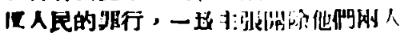反人民的罪行，一致主張開出他們兩人
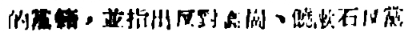的黨籍，並指出反對高崗、饒漱石反黨
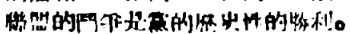聯盟的鬥爭是黨的歷史性的勝利。
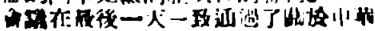會議在最後一天一致通過了關於中華
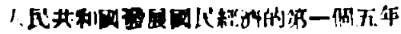人民共和國發展國民經濟的第一個五年
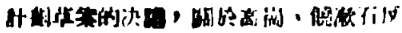計劃草案的決議，關於高崗、饒漱石反
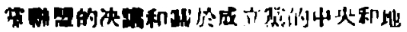黨聯盟的決議和關於成立黨的中央和地
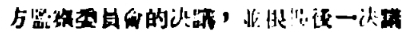方監察委員會的決議，並根據後一決議
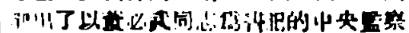選出了以董必武同志爲書記的中央監察
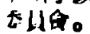委員會。
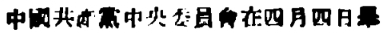中國共產黨中央委員會在四月四日舉
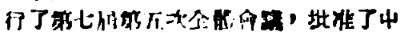行了第七屆第五次全體會議，批准了中
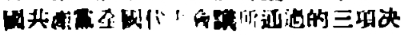國共產黨全國代表會議所通過的三項決
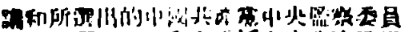議和所選出的中國共產黨中央監察委員
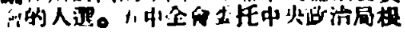會的人選。五中全會委託中央政治局根
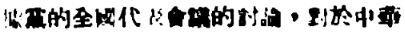據黨的全國代表會議的討論，對於中華
